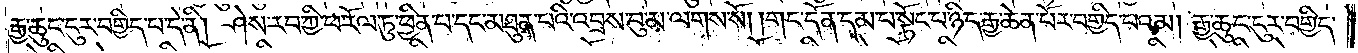རྒྱ་ཆུང་ངུར་བགྱིད་པ་དེ་ནི། ཤེས་རབ་ཀྱི་ཕ་རོལ་ཏུ་ཕྱིན་པ་དང་མཐུན་པའི་འབྲས་བུ་མ་ལགས་སོ། །གང་དོན་དམ་པ་སྟོང་པ་ཉིད་རྒྱ་ཆེན་པོར་བགྱིད་པའམ། རྒྱ་ཆུང་ངུར་བགྱིད་
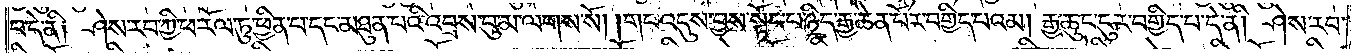པ་དེ་ནི། ཤེས་རབ་ཀྱི་ཕ་རོལ་ཏུ་ཕྱིན་པ་དང་མཐུན་པའི་འབྲས་བུ་མ་ལགས་སོ། །གང་འདུས་བྱས་སྟོང་པ་ཉིད་རྒྱ་ཆེན་པོར་བགྱིད་པའམ། རྒྱ་ཆུང་ངུར་བགྱིད་པ་དེ་ནི། ཤེས་རབ་
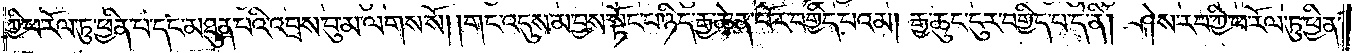ཀྱི་ཕ་རོལ་ཏུ་ཕྱིན་པ་དང་མཐུན་པའི་འབྲས་བུ་མ་ལགས་སོ། །གང་འདུས་མ་བྱས་སྟོང་པ་ཉིད་རྒྱ་ཆེན་པོར་བགྱིད་པའམ། རྒྱ་ཆུང་ངུར་བགྱིད་པ་དེ་ནི། ཤེས་རབ་ཀྱི་ཕ་རོལ་ཏུ་ཕྱིན་
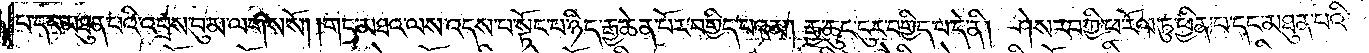པ་དང་མཐུན་པའི་འབྲས་བུ་མ་ལགས་སོ། །གང་མཐའ་ལས་འདས་པ་སྟོང་པ་ཉིད་རྒྱ་ཆེན་པོར་བགྱིད་པའམ། རྒྱ་ཆུང་ངུར་བགྱིད་པ་དེ་ནི། ཤེས་རབ་ཀྱི་ཕ་རོལ་ཏུ་ཕྱིན་པ་དང་མཐུན་པའི་
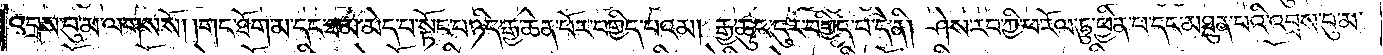འབྲས་བུ་མ་ལགས་སོ། །གང་ཐོག་མ་དང་ཐ་མ་མེད་པ་སྟོང་པ་ཉིད་རྒྱ་ཆེན་པོར་བགྱིད་པའམ། རྒྱ་ཆུང་ངུར་བགྱིད་པ་དེ་ནི། ཤེས་རབ་ཀྱི་ཕ་རོལ་ཏུ་ཕྱིན་པ་དང་མཐུན་པའི་འབྲས་བུ་མ་
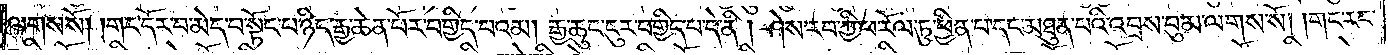ལགས་སོ། །གང་དོར་བ་མེད་པ་སྟོང་པ་ཉིད་རྒྱ་ཆེན་པོར་བགྱིད་པའམ། རྒྱ་ཆུང་ངུར་བགྱིད་པ་དེ་ནི། ཤེས་རབ་ཀྱི་ཕ་རོལ་ཏུ་ཕྱིན་པ་དང་མཐུན་པའི་འབྲས་བུ་མ་ལགས་སོ། །གང་རང་
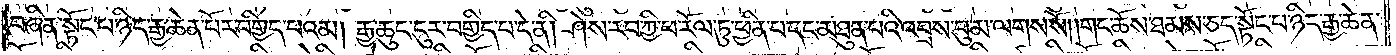བཞིན་སྟོང་པ་ཉིད་རྒྱ་ཆེན་པོར་བགྱིད་པའམ། རྒྱ་ཆུང་ངུར་བགྱིད་པ་དེ་ནི། ཤེས་རབ་ཀྱི་ཕ་རོལ་ཏུ་ཕྱིན་པ་དང་མཐུན་པའི་འབྲས་བུ་མ་ལགས་སོ། །གང་ཆོས་ཐམས་ཅད་སྟོང་པ་ཉིད་རྒྱ་ཆེན་
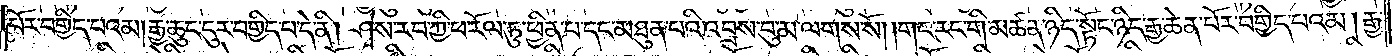པོར་བགྱིད་པའམ། རྒྱ་ཆུང་ངུར་བགྱིད་པ་དེ་ནི། ཤེས་རབ་ཀྱི་ཕ་རོལ་ཏུ་ཕྱིན་པ་དང་མཐུན་པའི་འབྲས་བུ་མ་ལགས་སོ། །གང་རང་གི་མཚན་ཉིད་སྟོང་ཉིད་རྒྱ་ཆེན་པོར་བགྱིད་པའམ། རྒྱ་
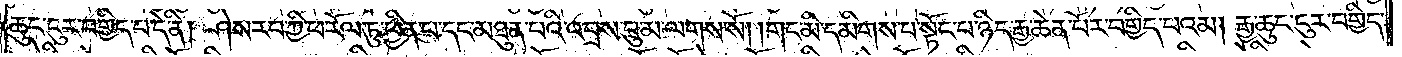ཆུང་ངུར་བགྱིད་པ་དེ་ནི། ཤེས་རབ་ཀྱི་ཕ་རོལ་ཏུ་ཕྱིན་པ་དང་མཐུན་པའི་འབྲས་བུ་མ་ལགས་སོ། །གང་མི་དམིགས་པ་སྟོང་པ་ཉིད་རྒྱ་ཆེན་པོར་བགྱིད་པའམ། རྒྱ་ཆུང་ངུར་བགྱིད་
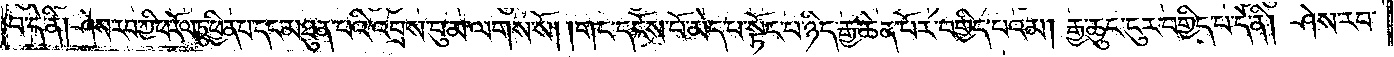པ་དེ་ནི། ཤེས་རབ་ཀྱི་ཕ་རོལ་ཏུ་ཕྱིན་པ་དང་མཐུན་པའི་འབྲས་བུ་མ་ལགས་སོ། །གང་དངོས་པོ་མེད་པ་སྟོང་པ་ཉིད་རྒྱ་ཆེན་པོར་བགྱིད་པའམ། རྒྱ་ཆུང་ངུར་བགྱིད་པ་དེ་ནི། ཤེས་རབ་
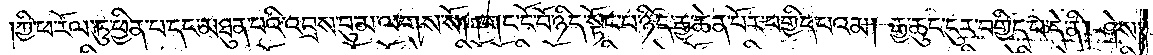ཀྱི་ཕ་རོལ་ཏུ་ཕྱིན་པ་དང་མཐུན་པའི་འབྲས་བུ་མ་ལགས་སོ། །གང་ངོ་བོ་ཉིད་སྟོང་པ་ཉིད་རྒྱ་ཆེན་པོར་བགྱིད་པའམ། རྒྱ་ཆུང་ངུར་བགྱིད་པ་དེ་ནི། ཤེས་
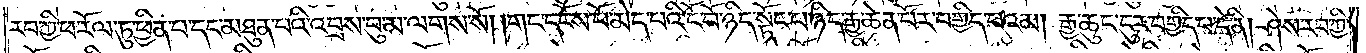རབ་ཀྱི་ཕ་རོལ་ཏུ་ཕྱིན་པ་དང་མཐུན་པའི་འབྲས་བུ་མ་ལགས་སོ། །གང་དངོས་པོ་མེད་པའི་ངོ་བོ་ཉིད་སྟོང་པ་ཉིད་རྒྱ་ཆེན་པོར་བགྱིད་པའམ། རྒྱ་ཆུང་ངུར་བགྱིད་པ་དེ་ནི། ཤེས་རབ་ཀྱི་
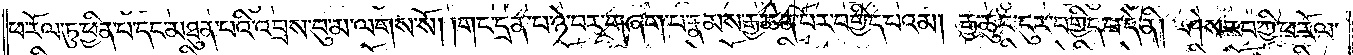ཕ་རོལ་ཏུ་ཕྱིན་པ་དང་མཐུན་པའི་འབྲས་བུ་མ་ལགས་སོ། །གང་དྲན་པ་ཉེ་བར་གཞག་པ་རྣམས་རྒྱ་ཆེན་པོར་བགྱིད་པའམ། རྒྱ་ཆུང་ངུར་བགྱིད་པ་དེ་ནི། ཤེས་རབ་ཀྱི་ཕ་རོལ་
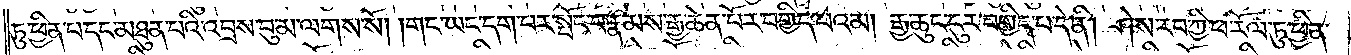ཏུ་ཕྱིན་པ་དང་མཐུན་པའི་འབྲས་བུ་མ་ལགས་སོ། །གང་ཡང་དག་པར་སྤོང་བ་རྣམས་རྒྱ་ཆེན་པོར་བགྱིད་པའམ། རྒྱ་ཆུང་ངུར་བགྱིད་པ་དེ་ནི། ཤེས་རབ་ཀྱི་ཕ་རོལ་ཏུ་ཕྱིན་
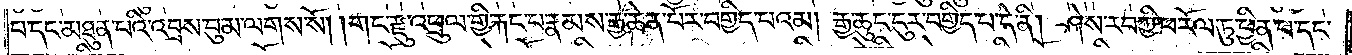པ་དང་མཐུན་པའི་འབྲས་བུ་མ་ལགས་སོ། །གང་རྫུ་འཕྲུལ་གྱི་རྐང་པ་རྣམས་རྒྱ་ཆེན་པོར་བགྱིད་པའམ། རྒྱ་ཆུང་ངུར་བགྱིད་པ་དེ་ནི། ཤེས་རབ་ཀྱི་ཕ་རོལ་ཏུ་ཕྱིན་པ་དང་
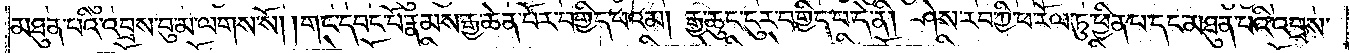མཐུན་པའི་འབྲས་བུ་མ་ལགས་སོ། །གང་དབང་པོ་རྣམས་རྒྱ་ཆེན་པོར་བགྱིད་པའམ། རྒྱ་ཆུང་ངུར་བགྱིད་པ་དེ་ནི། ཤེས་རབ་ཀྱི་ཕ་རོལ་ཏུ་ཕྱིན་པ་དང་མཐུན་པའི་འབྲས་
